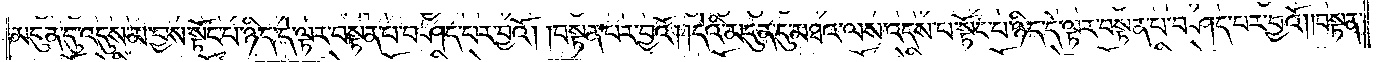མདུན་དུ་འདུས་མ་བྱས་སྟོང་པ་ཉིད་དེ་ལྟར་བསྟན་པ་བཤད་པར་བྱའོ། །བསྟན་པར་བྱའོ། །དེའི་མདུན་དུ་མཐའ་ལས་འདས་པ་སྟོང་པ་ཉིད་དེ་ལྟར་བསྟན་པ་བཤད་པར་བྱའོ། །བསྟན་
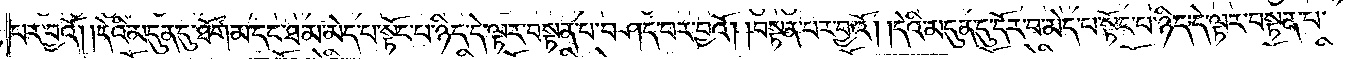པར་བྱའོ། །དེའི་མདུན་དུ་ཐོག་མ་དང་ཐ་མ་མེད་པ་སྟོང་པ་ཉིད་དེ་ལྟར་བསྟན་པ་བཤད་པར་བྱའོ། །བསྟན་པར་བྱའོ། །དེའི་མདུན་དུ་དོར་བ་མེད་པ་སྟོང་པ་ཉིད་དེ་ལྟར་བསྟན་པ་
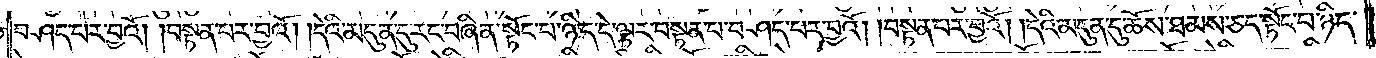བཤད་པར་བྱའོ། །བསྟན་པར་བྱའོ། །དེའི་མདུན་དུ་རང་བཞིན་སྟོང་པ་ཉིད་དེ་ལྟར་བསྟན་པ་བཤད་པར་བྱའོ། །བསྟན་པར་བྱའོ། །དེའི་མདུན་དུ་ཆོས་ཐམས་ཅད་སྟོང་པ་ཉིད་
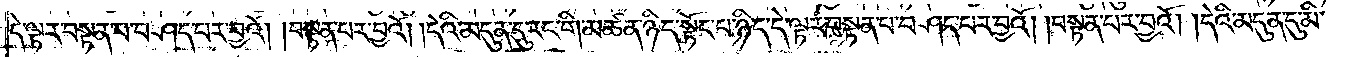དེ་ལྟར་བསྟན་པ་བཤད་པར་བྱའོ། །བསྟན་པར་བྱའོ། །དེའི་མདུན་དུ་རང་གི་མཚན་ཉིད་སྟོང་པ་ཉིད་དེ་ལྟར་བསྟན་པ་བཤད་པར་བྱའོ། །བསྟན་པར་བྱའོ། །དེའི་མདུན་དུ་མི་
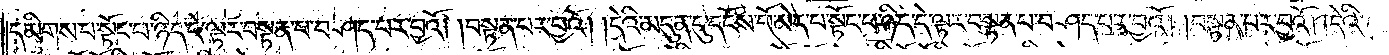དམིགས་པ་སྟོང་པ་ཉིད་དེ་ལྟར་བསྟན་པ་བཤད་པར་བྱའོ། །བསྟན་པར་བྱའོ། །དེའི་མདུན་དུ་དངོས་པོ་མེད་པ་སྟོང་པ་ཉིད་དེ་ལྟར་བསྟན་པ་བཤད་པར་བྱའོ། །བསྟན་པར་བྱའོ། །དེའི་
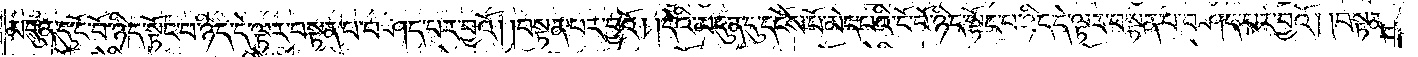མདུན་དུ་ངོ་བོ་ཉིད་སྟོང་པ་ཉིད་དེ་ལྟར་བསྟན་པ་བཤད་པར་བྱའོ། །བསྟན་པར་བྱའོ། །དེའི་མདུན་དུ་དངོས་པོ་མེད་པའི་ངོ་བོ་ཉིད་སྟོང་པ་ཉིད་དེ་ལྟར་བསྟན་པ་བཤད་པར་བྱའོ། །བསྟན་
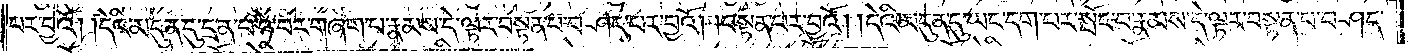པར་བྱའོ། །དེའི་མདུན་དུ་དྲན་པ་ཉེ་བར་གཞག་པ་རྣམས་དེ་ལྟར་བསྟན་པ་བཤད་པར་བྱའོ། །བསྟན་པར་བྱའོ། །དེའི་མདུན་དུ་ཡང་དག་པར་སྤོང་བ་རྣམས་དེ་ལྟར་བསྟན་པ་བཤད་
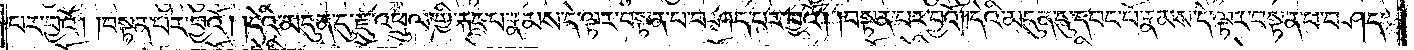པར་བྱའོ། །བསྟན་པར་བྱའོ། །དེའི་མདུན་དུ་རྫུ་འཕྲུལ་གྱི་རྐང་པ་རྣམས་དེ་ལྟར་བསྟན་པ་བཤད་པར་བྱའོ། །བསྟན་པར་བྱའོ། །དེའི་མདུན་དུ་དབང་པོ་རྣམས་དེ་ལྟར་བསྟན་པ་བཤད་
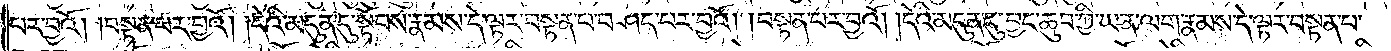པར་བྱའོ། །བསྟན་པར་བྱའོ། །དེའི་མདུན་དུ་སྟོབས་རྣམས་དེ་ལྟར་བསྟན་པ་བཤད་པར་བྱའོ། །བསྟན་པར་བྱའོ། །དེའི་མདུན་དུ་བྱང་ཆུབ་ཀྱི་ཡན་ལག་རྣམས་དེ་ལྟར་བསྟན་པ་
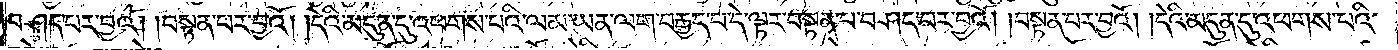བཤད་པར་བྱའོ། །བསྟན་པར་བྱའོ། །དེའི་མདུན་དུ་འཕགས་པའི་ལམ་ཡན་ལག་བརྒྱད་པ་དེ་ལྟར་བསྟན་པ་བཤད་པར་བྱའོ། །བསྟན་པར་བྱའོ། །དེའི་མདུན་དུ་འཕགས་པའི་
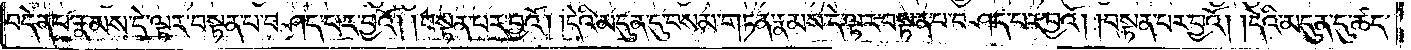བདེན་པ་རྣམས་དེ་ལྟར་བསྟན་པ་བཤད་པར་བྱའོ། །བསྟན་པར་བྱའོ། །དེའི་མདུན་དུ་བསམ་གཏན་རྣམས་དེ་ལྟར་བསྟན་པ་བཤད་བར་བྱའོ། །བསྟན་པར་བྱའོ། །དེའི་མདུན་དུ་ཚད་
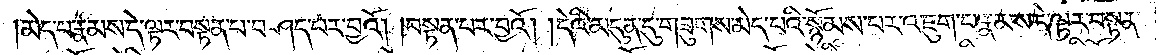མེད་པ་རྣམས་དེ་ལྟར་བསྟན་པ་བཤད་པར་བྱའོ། །བསྟན་པར་བྱའོ། །དེའི་མདུན་དུ་གཟུགས་མེད་པའི་སྙོམས་པར་འཇུག་པ་རྣམས་དེ་ལྟར་བསྟན་
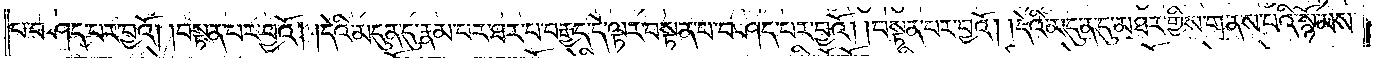པ་བཤད་པར་བྱའོ། །བསྟན་པར་བྱའོ། །དེའི་མདུན་དུ་རྣམ་པར་ཐར་པ་བརྒྱད་དེ་ལྟར་བསྟན་པ་བཤད་པར་བྱའོ། །བསྟན་པར་བྱའོ། །དེའི་མདུན་དུ་མཐར་གྱིས་གནས་པའི་སྙོམས་
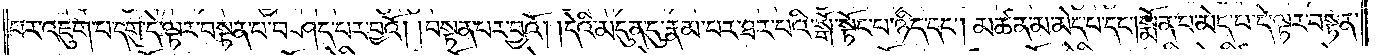པར་འཇུག་པ་དགུ་དེ་ལྟར་བསྟན་པ་བཤད་པར་བྱའོ། །བསྟན་པར་བྱའོ། །དེའི་མདུན་དུ་རྣམ་པར་ཐར་པའི་སྒོ་སྟོང་པ་ཉིད་དང༌། མཚན་མ་མེད་པ་དང༌། སྨོན་པ་མེད་པ་དེ་ལྟར་བསྟན་
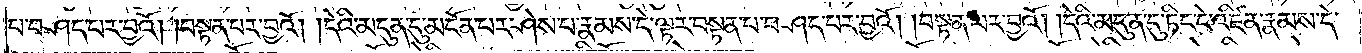པ་བཤད་པར་བྱའོ། །བསྟན་པར་བྱའོ། །དེའི་མདུན་དུ་མངོན་པར་ཤེས་པ་རྣམས་དེ་ལྟར་བསྟན་པ་བཤད་པར་བྱའོ། །བསྟན་པར་བྱའོ། །དེའི་མདུན་དུ་ཏིང་ངེ་འཛིན་རྣམས་དེ་
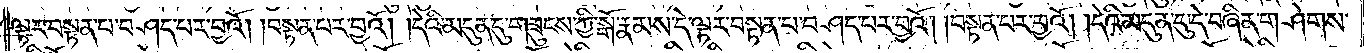ལྟར་བསྟན་པ་བཤད་པར་བྱའོ། །བསྟན་པར་བྱའོ། །དེའི་མདུན་དུ་གཟུངས་ཀྱི་སྒོ་རྣམས་དེ་ལྟར་བསྟན་པ་བཤད་པར་བྱའོ། །བསྟན་པར་བྱའོ། །དེའི་མདུན་དུ་དེ་བཞིན་གཤེགས་
